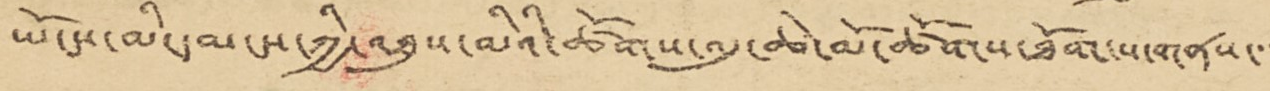ཡོངས་མི་དམངས་ཀྱི་འཐུས་མིའི་ཚོགས་འདུ་ཆེ་མོ་ཚོགས་ཐོག་ས་གནས་་་
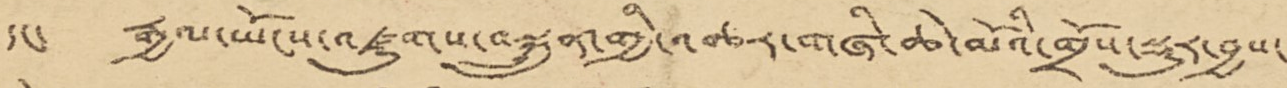དང་ རྒྱལ་ཡོངས་འཛུགས་བསྐྲུན་གྱི་འཆར་གཞི་ཆེ་མོའི་གྲོས་སྡུར་བྱས་
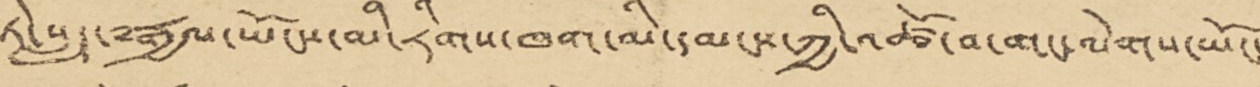ཏེ་སླད་༸རྒྱལ་ཡོངས་མི་རིགས་ཁག་མི་དམངས་ཀྱི་འཚོ་བ་གང་ལེགས་ཡོང་
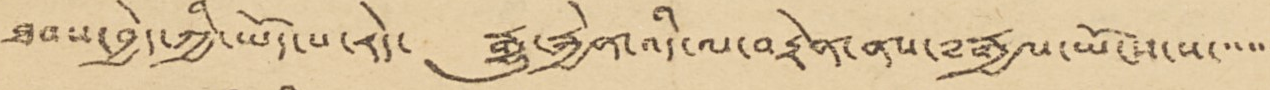ཐབས་བྱེད་ཀྱི་ཡོད་པ་རེད་ རྒྱུ་རྐྱེན་འདི་ལ་བརྟེན་ནས་༸རྒྱལ་ཡོངས་ས་་་་་་
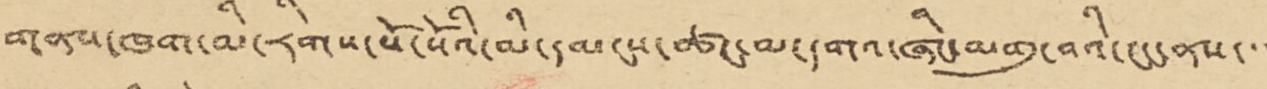གནས་ཁག་མི་རིགས་སོ་སོའི་མི་དམངས་ཚང་མ་དགའ་ཞིང་མགུ་བའི་ངང་ནས་་་
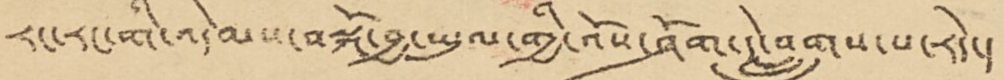རང་རང་གི་འདེམས་བསྐོ་བྱ་ཡུལ་གྱི་འོས་ཤོག་དེ་བླུགས་པ་རེད་།
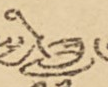སྤྱི་ཟླ་
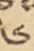༦
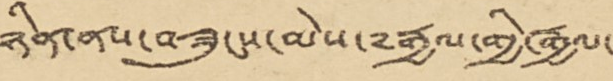ཉིན་ནས་བཟུངས་མེས་༸རྒྱལ་གྱི་རྒྱལ་
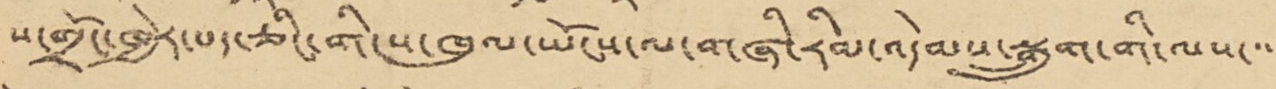ས་གྲོང་ཁྱེར་པད་ཅིང་གི་ས་ཁུལ་ཡོངས་ལ་གཞི་རིམ་འདེམས་སྒྲུག་གི་ལས་་་་
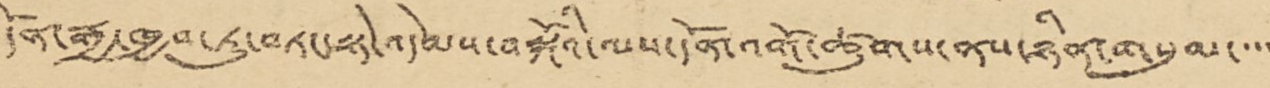དོན་རྒྱ་ཁྱབ་ཏུ་བཏང་སྟེ་འདེམས་བསྐོའི་ལས་དོན་འགོ་ཚུགས་ནས་ཉིན་གསུམ་་་་
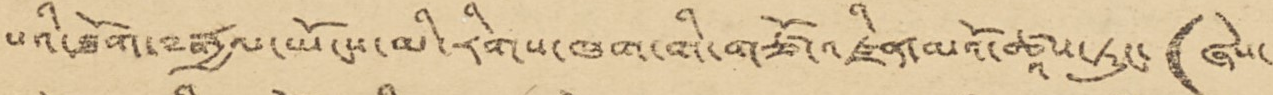པའི་ཐོག་༸རྒྱལ་ཡོངས་མི་རིགས་ཁག་གི་གཙོ་འཛིན་མའོ་ཚཱས་ཏུང་(ཞེས་
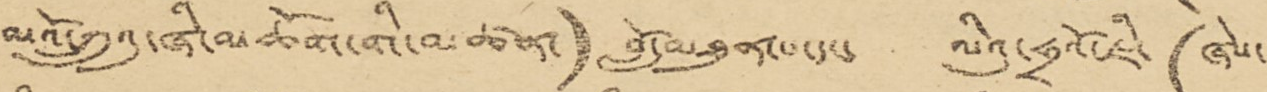མའོ་ཀྲུའུ་ཞི་མཆོག་གི་མཚན་) བློ་མཐུན་པ་དང་ ལིའུ་ཧྲའོ་ཇི་(ཞེས་
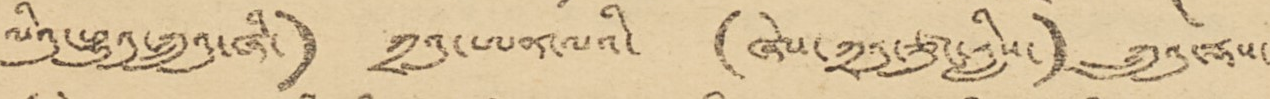ལིའུ་ཕྱུའུ་ཀྲུའུ་ཞི་) ཀྲའུ་ཨན་ལའི་ (ཞེས་ཀྲའུ་ཙུང་རླིས་) ཀྲུའུ་རྡས་
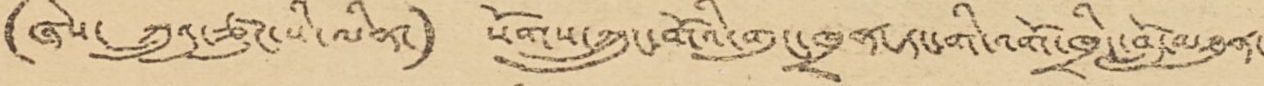(ཞེས་ ཀྲུའུ་ཙུང་སི་ལིན་) སོགས་ཀྲུང་གོའི་གུང་ཁྲན་ཏང་གི་འགོ་ཁྲིད་བློ་མཐུན་
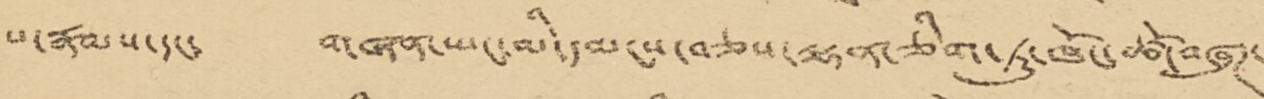པ་རྣམས་དང་ གཞན་ཡང་མི་དམངས་བཅས་ལྷན་ཅིག་ཏུ་ཁོང་ཚོ་བཞུཊ་
